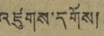འཛུགས་དགོས།
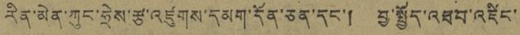རིན་མེན་ཀུང་ཧྲེས་རྩ་འཛུགས་དམག་དོན་ཅན་དང་། བྱ་སྤྱོད་འཐབ་འཛིང་
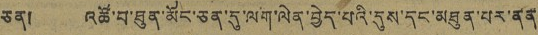ཅན། འཚོ་བ་ཐུན་མོང་ཅན་དུ་ལག་ལེན་བྱེད་པའི་དུས་དང་མཐུན་པར་ནན་
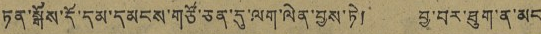ཏན་སྒོས་དོ་དམ་དམངས་གཙོ་ཅན་དུ་ལག་ལེན་བྱས་ཏེ། བྱ་བར་ཐུག་ན་མང
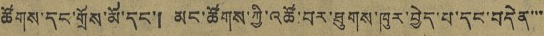ཚོགས་དང་གྲོས་མོ་དང་། མང་ཚོགས་ཀྱི་འཚོ་བར་ཐུགས་ཁུར་བྱེད་པ་དང་བདེན་་་
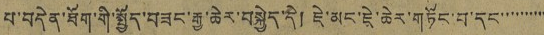པ་བདེན་ཐོག་གི་སྤྱོད་བཟང་རྒྱ་ཆེར་བསྐྱེད་དེ། ཇེ་མང་ཇེ་ཆེར་གཏོང་བ་དང་་་་་་་་་་
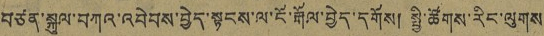བཙན་སྐུལ་བཀའ་འབེབས་བྱེད་སྟངས་ལ་ངོ་རྒོལ་བྱེད་དགོས། སྤྱི་ཚོགས་རིང་ལུགས
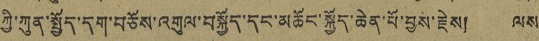ཀྱི་ཀུན་སྤྱོད་དག་བཅོས་འགུལ་བསྐྱོད་དང་མཆོང་སྐྱོད་ཆེན་པོ་བྱས་རྗེས། ལས་
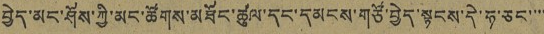བྱེད་མང་ཤོས་ཀྱི་མང་ཚོགས་མཐོང་ཚུལ་དང་དམངས་གཙོ་བྱེད་སྟངས་དེ་ཧ་ཅང་་་་
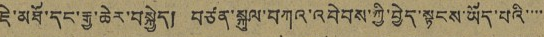ཇེ་མཐོ་དང་རྒྱ་ཆེར་བསྐྱེད། བཙན་སྐུལ་བཀའ་འབེབས་ཀྱི་བྱེད་སྟངས་ཡོད་པའི་་་་
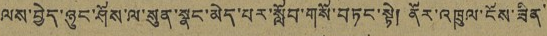ལས་བྱེད་ཉུང་ཤོས་ལ་སུན་སྣང་མེད་པར་སློབ་གསོ་བཏང་སྟེ། ནོར་འཁྲུལ་ངོས་ཟིན་
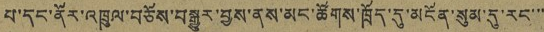པ་དང་ནོར་འཁྲུལ་བཅོས་བསྒྱུར་བྱས་ནས་མང་ཚོགས་ཁྲོད་དུ་མངོན་སུམ་དུ་རང་་་་
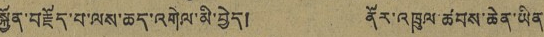སྐྱོན་བརྗོད་པ་ལས་ཆད་འགེལ་མི་བྱེད། ནོར་འཁྲུལ་ཚབས་ཆེན་ཡིན
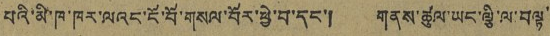པའི་མི་ཁ་ཁར་ལའང་ངོ་བོ་གསལ་བོར་ཕྱེ་བ་དང་། གནས་ཚུལ་ཡང་ལྕི་ལ་བལྟ
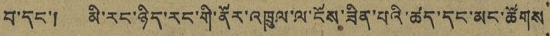བ་དང་། མི་རང་ཉིད་རང་གི་ནོར་འཁྲུལ་ལ་ངོས་ཟིན་པའི་ཚད་དང་མང་ཚོགས
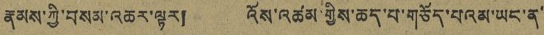རྣམས་ཀྱི་བསམ་འཆར་ལྟར། འོས་འཚམ་གྱིས་ཆད་པ་གཅོད་པའམ་ཡང་ན་
